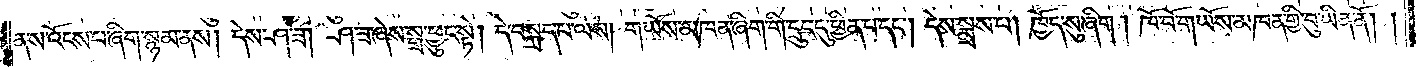ནས་འོངས་པ་ཞིག་སྙམ་ནས། དེས་ཤ་ཟ། ཤ་ཟ་ཞེས་སྒྲ་ཕྱུང་སྟེ། དེ་བསྐྲད་པ་ལས། གཡོས་མཁན་ཞིག་གི་དྲུང་དུ་ཕྱིན་པ་དང༌། དེས་སྨྲས་པ། ཁྱོད་སུ་ཞིག། ཁོ་བོ་གཡོས་མཁན་གྱི་བུ་ཡིན་ནོ། །
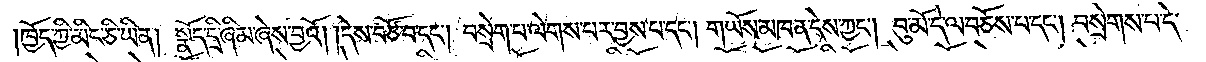ཁྱོད་ཀྱི་མིང་ཅི་ཡིན། སྣོད་དྲི་ཞིམ་ཞེས་བྱའོ། །དེས་བཙོ་བ་དང༌། བསྲེག་པ་ལེགས་པར་བྱས་པ་དང༌། གཡོས་མཁན་དེས་ཀྱང༌། བུ་མོ་དེ་ལ་བཅོས་པ་དང༌། བསྲེགས་པ་དེ་
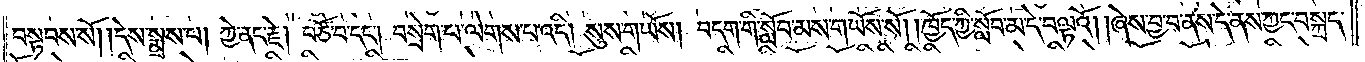བསྟབས་སོ། །དེས་སྨྲས་པ། ཀྱེ་ནང་རྗེ། བཙོ་བ་དང༌། བསྲེག་པ་ལེགས་པ་འདི། སུས་གཡོས། བདག་གི་སློབ་མས་གཡོས་སོ། །ཁྱོད་ཀྱི་སློབ་མ་དེ་བལྟའོ། །ཞེས་བྱ་བ་ནས་དེ་ནས་ཀྱང་བསྐྲད་
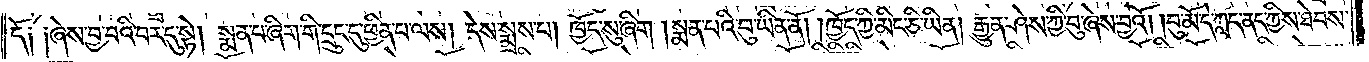དོ༑ ༑ཞེས་བྱ་བའི་བར་དུ་སྟེ། སྨན་པ་ཞིག་གི་དྲུང་དུ་ཕྱིན་པ་ལས། དེས་སྨྲས་པ། ཁྱོད་སུ་ཞིག །སྨན་པའི་བུ་ཡིན་ནོ། །ཁྱོད་ཀྱི་མིང་ཅི་ཡིན། རྒྱུན་ཤེས་ཀྱི་བུ་ཞེས་བྱའོ། །བུ་མོ་དེ་ཀླད་ནད་ཀྱིས་ཐེབས་
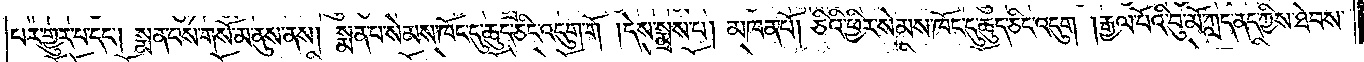པར་གྱུར་པ་དང༌། སྨན་པས་གསོ་མ་ནུས་ནས། སྨན་པ་སེམས་ཁོང་དུ་ཆུད་ཅིང་འདུག་གོ །དེས་སྨྲས་པ། མཁན་པོ། ཅིའི་ཕྱིར་སེམས་ཁོང་དུ་ཆུད་ཅིང་འདུག །རྒྱལ་པོའི་བུ་མོ་ཀླད་ནད་ཀྱིས་ཐེབས་
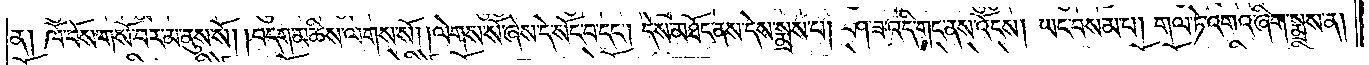ན། ཁོ་བོས་གསོ་བར་མ་ནུས་སོ། །བདག་མཆིས་ལགས་སོ། །ལེགས་སོ་ཞེས་དེ་སོང་བ་དང༌། དེས་མཐོང་ནས་དེས་སྨྲས་པ། ཤ་ཟ་འདི་གང་ནས་འོངས། ཡང་བསམ་པ། གལ་ཏེ་འགའ་ཞིག་སྨྲས་ན།
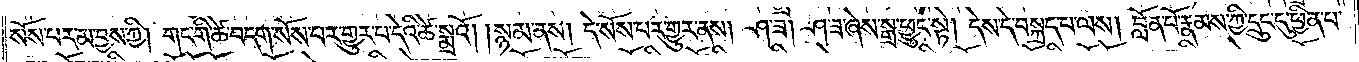སོས་པར་མ་བྱས་ཀྱི། གང་གི་ཚེ་བདག་སོས་པར་གྱུར་པ་དེའི་ཚེ་སྨྲའོ། །སྙམ་ནས། དེ་སོས་པར་གྱུར་ནས། ཤ་ཟ། ཤ་ཟ་ཞེས་སྒྲ་ཕྱུང་སྟེ། དེས་དེ་བསྐྲད་པ་ལས། བློན་པོ་རྣམས་ཀྱི་དྲུང་དུ་ཕྱིན་པ་
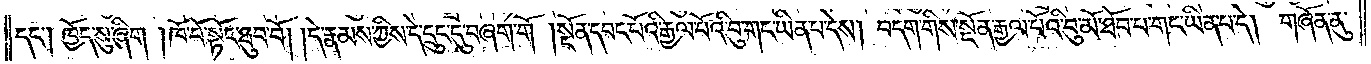དང༌། ཁྱོད་སུ་ཞིག །ཁོ་བོ་སྟོང་ཐུབ་བོ། །དེ་རྣམས་ཀྱིས་དེ་དྲུང་དུ་བཞག་གོ །སྔོན་དབང་པོའི་རྒྱལ་པོའི་བུ་གང་ཡིན་པ་དེས། བདག་གིས་སྔོན་རྒྱལ་པོའི་བུ་མོ་ཐོབ་པ་གང་ཡིན་པ་དེ། གཞོན་ནུ་
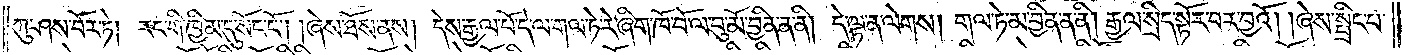ཀུ་ཤས་བོར་ཏེ།  རང་གི་ཁྱིམ་དུ་སོང་ངོ༌། །ཞེས་ཐོས་ནས། དེས་རྒྱལ་པོ་དེ་ལ་གལ་ཏེ་རེ་ཞིག་ཁོ་བོ་ལ་བུ་མོ་བྱིན་ན་ནི། དེ་ལྟ་ན་ལེགས། གལ་ཏེ་མ་བྱིན་ན་ནི། རྒྱལ་སྲིད་སྟོར་བར་བྱའོ། །ཞེས་སྤྲིང་པ་
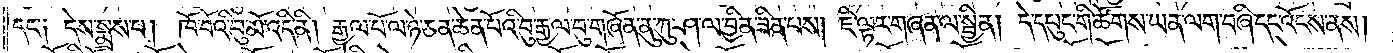དང་༑ དེས་སྨྲས་པ། ཁོ་བོའི་བུ་མོ་འདི་ནི། རྒྱལ་པོ་ལ་ཉེ་ཅན་ཆེན་པོའི་བུ་རྒྱལ་བུ་གཞོན་ནུ་ཀུ་ཤ་ལ་བྱིན་ཟིན་པས། ཇི་ལྟར་གཞན་ལ་སྦྱིན། དེ་དཔུང་གི་ཚོགས་ཡན་ལག་བཞི་དང་འོངས་ནས།
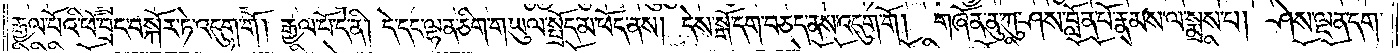རྒྱལ་པོའི་ཕོ་བྲང་བསྐོར་ཏེ་འདུག་གོ། རྒྱལ་པོ་དེ་ནི། དེ་དང་ལྷན་ཅིག་གཡུལ་སྤྲོད་མ་ཕོད་ནས། དེས་སྒོ་དག་བཅད་ནས་འདུག་གོ། གཞོན་ནུ་ཀུ་ཤས་བློན་པོ་རྣམས་ལ་སྨྲས་པ། ཤེས་ལྡན་དག་
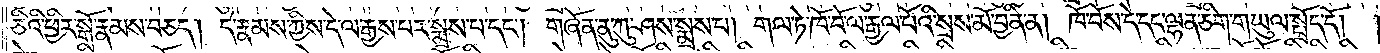ཅིའི་ཕྱིར་སྒོ་རྣམས་བཅད། དེ་རྣམས་ཀྱིས་དེ་ལ་རྒྱས་པར་སྨྲས་པ་དང༌། གཞོན་ནུ་ཀུ་ཤས་སྨྲས་པ། གལ་ཏེ་ཁོ་བོ་ལ་རྒྱལ་པོའི་སྲས་མོ་བྱིན་ན། ཁོ་བོས་དེ་དང་ལྷན་ཅིག་གཡུལ་སྤྲོད་དོ། །
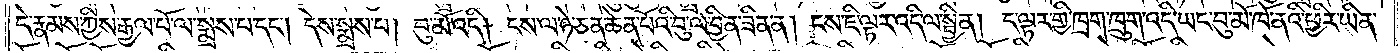དེ་རྣམས་ཀྱིས་རྒྱལ་པོ་ལ་སྨྲས་པ་དང༌། དེས་སྨྲས་པ། བུ་མོ་འདི། ངས་ལ་ཉེ་ཅན་ཆེན་པོའི་བུ་ལ་བྱིན་ཟིན་ན། ངས་ཇི་ལྟར་འདི་ལ་སྦྱིན། ད་ལྟར་གྱི་ཁྲག་ཁྲུག་འདི་ཡང་བུ་མོ་ཁོ་ནའི་ཕྱིར་ཡིན་
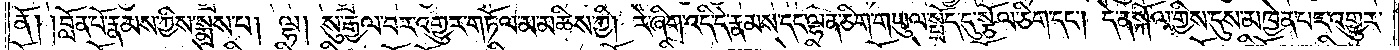ནོ། །བློན་པོ་རྣམས་ཀྱིས་སྨྲས་པ། ལྷ། སུ་རྒྱལ་བར་འགྱུར་གཏོལ་མ་མཆིས་ཀྱི། རེ་ཞིག་འདི་དེ་རྣམས་དང་ལྷན་ཅིག་གཡུལ་སྤྲོད་དུ་སྩོལ་ཅིག་དང༌། དེ་ན་སྐོལ་གྱིས་དུས་མཁྱེན་པར་འགྱུར་
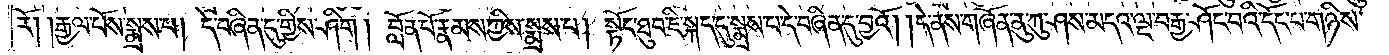རོ། །རྒྱལ་པོས་སྨྲས་པ། དེ་བཞིན་དུ་གྱིས་ཤིག། བློན་པོ་རྣམས་ཀྱིས་སྨྲས་པ། སྟོང་ཐུབ་ཇི་སྐད་དུ་སྨྲས་པ་དེ་བཞིན་དུ་བྱའོ། །དེ་ནས་བཞོན་ནུ་ཀུ་ཤས་མདའ་ལྔ་བརྒྱ་ཤོང་བའི་དོང་པ་གཉིས་
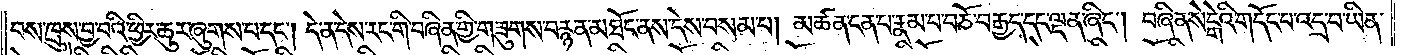བས་ཁྲུས་བྱ་བའི་ཕྱིར་ཆུར་ཞུགས་པ་དང༌། དེ་ན་དེས་རང་གི་བཞིན་གྱི་གཟུགས་བརྙན་མཐོང་ནས་དེས་བསམ་པ། མཚན་ངན་པ་རྣམ་པ་བཅོ་བརྒྱད་དང་ལྡན་ཞིང༌། བཞིན་སེངྒེའི་གདོང་པ་འདྲ་བ་ཡིན་
